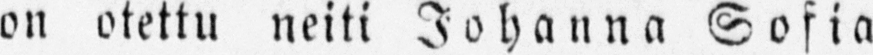on otettu neiti Johanna Sofia
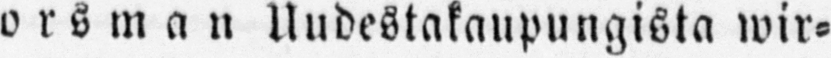Forsman Uudestakaupungista wir-
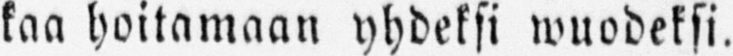kaa hoitamaan yhdeksi wuodeksi.
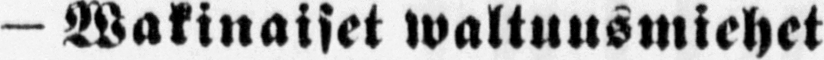— Wakinaiset waltuusmiehet
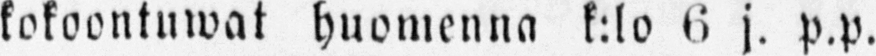kokoontuwat huomenna k:lo 6 j. p.p.
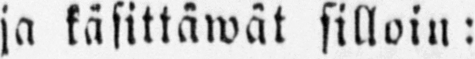ja käsittäwät silloin:
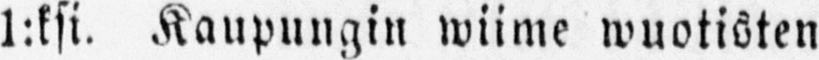1:ksi. Kaupungin wiime wuotisten
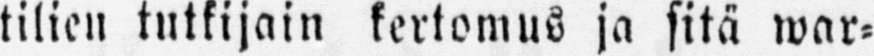tilien tutkijain kertomus ja sitä war-
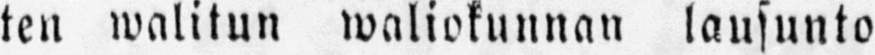ten walitun waliokunnan lausunto
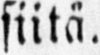siitä.
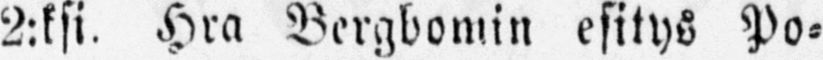2:ksi. Hra Bergbomin esityö Po-
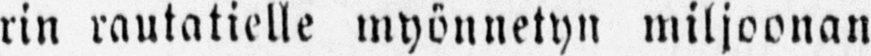rin rautatielle myönnetyn miljoonan
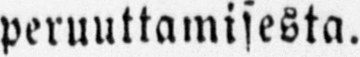peruuttamisesta.
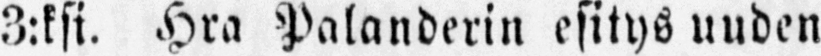3:ksi. Hra Palanderin esitys uuden
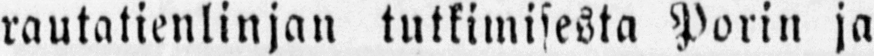rautatienlinjan tutkimisesta Porin ja
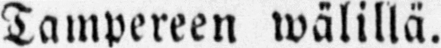Tampereen walilla.
